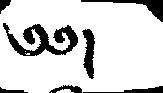༅༅།
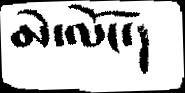མེ་ལོང་།
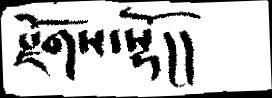སྫོགས་སྷོ།།
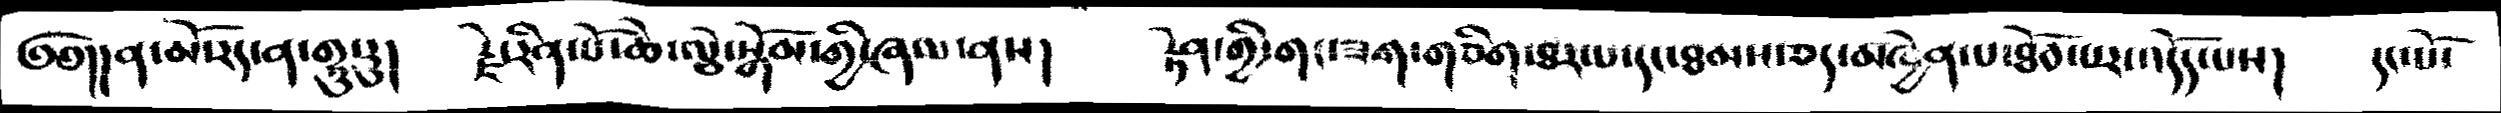༅༅།།ན་མོ་རད་ན་གྷུ་རུ།     རྗེ་རིན་པོ་ཆེ་ལྕེ་སྒོམ་གྱི་ཞལ་ནས།    རྟེན་གྱི་གང་ཟག་གཅིག་ཐར་པ་དང་ཐམས་ཅད་མཁྱེན་པ་ཐོབ་པར་འདོད་པས།   དང་པོ་
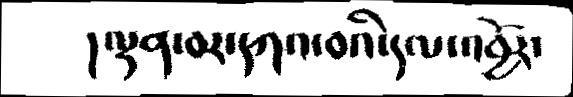། ལྡན་བར་དཀའ་བའི་དལ་འབྱོར་
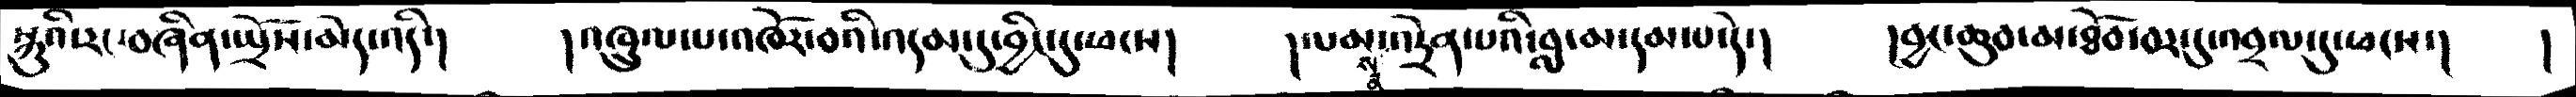སྐུའི་རང་བཞིན་ཡྲོས་མེད་འདི་།     །འཁྲུལ་པ་འཁོར་བའི་འདམ་དུ་བྱིང་དུ་ཕངས།    །ལམ་སྣ་འཏྲེན་པའི་བླ་མ་དམ་པ་དེ་།    །བྱང་ཆུབ་མ་ཐོབ་བར་དུ་འབྲལ་དུ་ཕངས་།    །
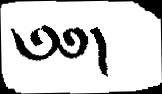༅༅།
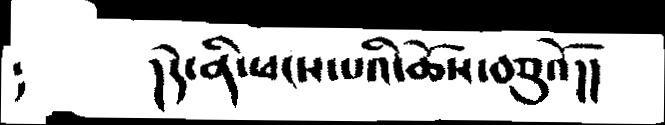།      །དེ་ནི་ཕངས་པའི་ཆོས་བཅུའོ།།
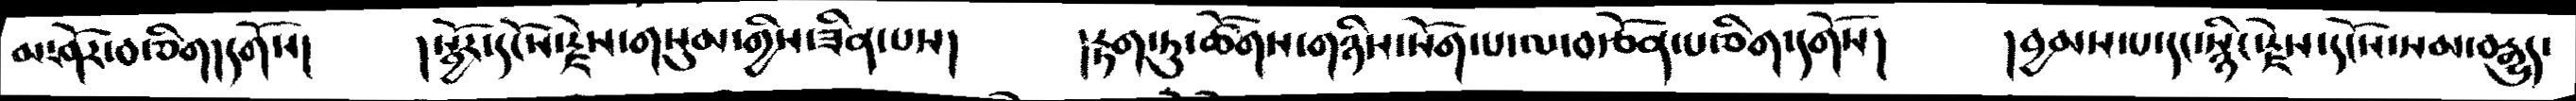མ་ཤོར་བ་ཅིག་དགོས།    །སྦྱོར་དངོས་རྗེས་གསུམ་གྱིས་ཟིན་པས།     །རྟག་ཏུ་ཚོགས་གཉིས་སོག་པ་ལ་བརྩོན་པ་ཅིག་དགོས།     །བྱམས་པ་དང་སྙིང་རྗེས་དངོས་སམ་བརྒྱུད་
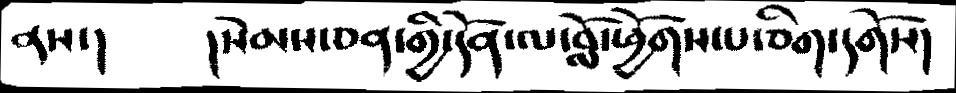ནས་།       །སེམས་ཅན་གྱི་དོན་ལ་བློ་ཕྱོགས་པ་ཅིག་དགོས།
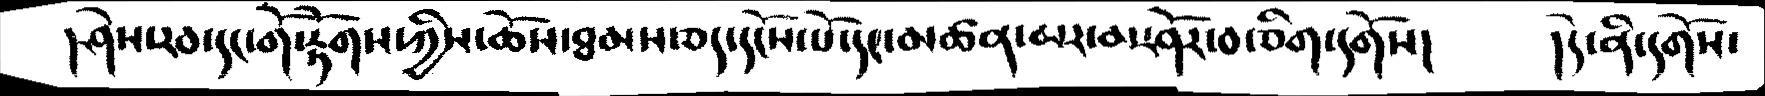།ཤེས་རབ་དང་གོ་རྟོགས་ཀྱིས་ཆོས་ཐམས་ཅད་དངོས་པོ་དང་མཚན་མར་མ་ཤོར་བ་ཅིག་དགོས།    །དེ་ནི་དགོས་
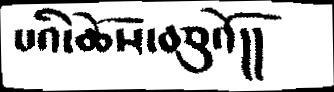པའི་ཆོས་བཅུའོ།།
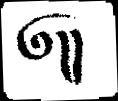༅།།
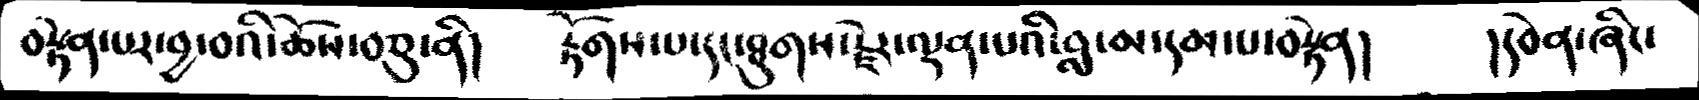བརྟེན་པར་བྱ་བའི་ཆོས་བཅུ་ནི།    རྟོག་པ་དང་ཐུགས་རྗེར་ལྡན་པའི་བླ་མ་དམ་པ་བརྟེན།     །དབེན་ཞིང་
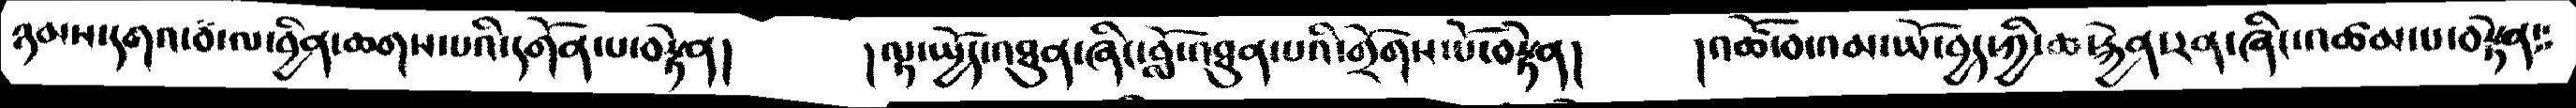ཉམས་དགའ་བ་ལ་བྱིན་ཆགས་པའི་དགོན་པ་བརྟེན།    །ལྟ་ཡྱོད་འཐུན་ཞིང་བློ་འཐུན་པའི་གྲོགས་པོ་བརྟེན།     །འཚོ་བ་འམ་ཡོད་བྱད་ཀྱི་ཆ་རྐྱེན་རན་ཞིང་འཚམ་པ་བརྟེན་༴
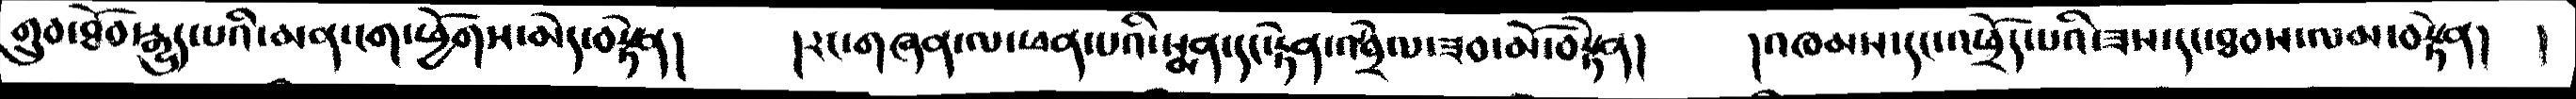གྲུབ་ཐོབ་རྒྱུད་པའི་མན་ངག་ཕྱོགས་མེད་བརྟེན།      །རང་གཞན་ལ་ཕན་པའི་སྨན་དང་རྟེན་འབྲེལ་ཟབ་མོ་བརྟེན།     །འཁམས་དང་འཕྲོད་པའི་ཟས་དང་ཐབས་ལམ་བརྟེན།   །
